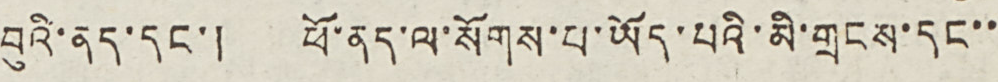བུའི་ནད་དང་། ཕོ་ནད་ལ་སོགས་པ་ཡོད་པའི་མི་གྲངས་དང་་
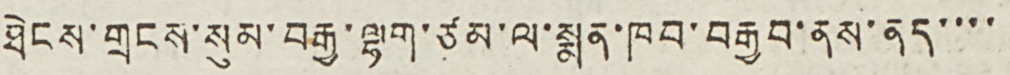ཐེངས་གྲངས་སུམ་བརྒྱ་ལྷག་ཙམ་ལ་སྨན་ཁབ་བརྒྱབ་ནས་ནད་་་་
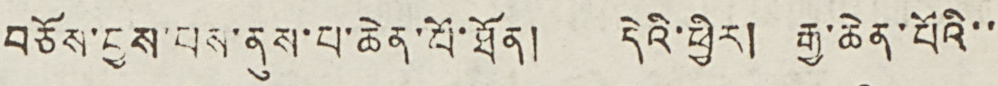བཅོས་བྱས་པས་ནུས་པ་ཆེན་པོ་ཐོན། དེའི་ཕྱིར། རྒྱ་ཆེན་པོའི་་
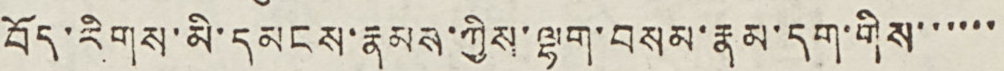བོད་རིགས་མི་དམངས་རྣམས་ཀྱིས་ལྷག་བསམ་རྣམ་དག་གིས་་་་་་
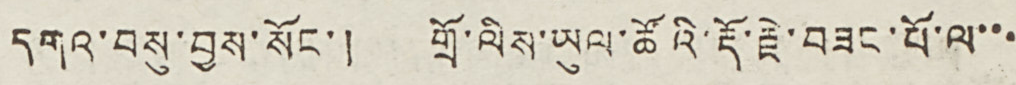དགའ་བསུ་བྱས་སོང་། གྲོ་ལིས་ཡུལ་ཚོའི་རྡོ་རྗེ་བཟང་པོ་ལ་་་
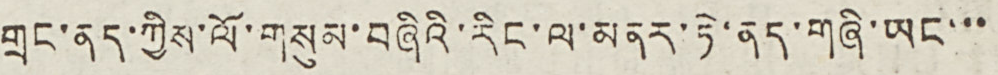གྲང་ནད་ཀྱིས་ལོ་གསུམ་བཞིའི་རིང་ལ་མནར་ཏེ་ནད་གཞི་ཡང་་་
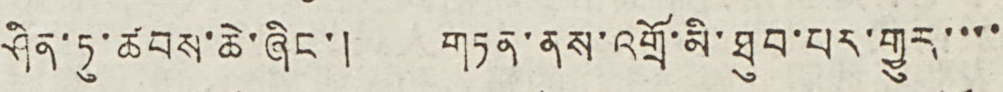ཤིན་ཏུ་ཚབས་ཆེ་ཞིང་། གཏན་ནས་འགྲོ་མི་ཐུབ་པར་གྱུར་་་་
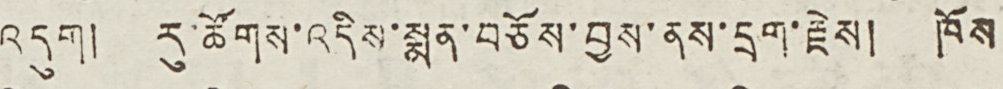འདུག། རུ་ཚོགས་འདིས་སྨན་བཅོས་བྱས་ནས་དྲུག་རྗེས། ཁོས
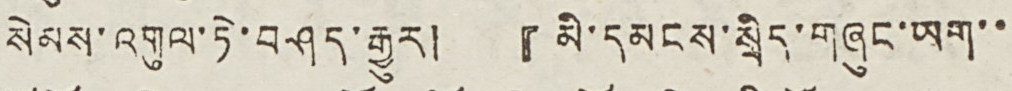སེམས་འགུལ་ཏེ་བཤད་རྒྱུར། 『མི་དམངས་སྲིད་གཞུང་ཡག་་
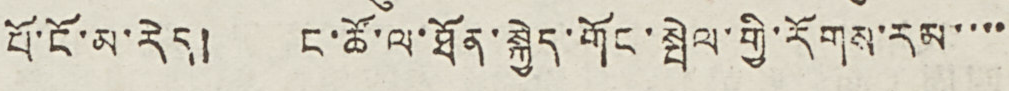པོ་ངོ་མ་རེད། ང་ཚོ་ལ་ཐོན་སྐྱེད་གོང་སྤེལ་གྱི་རོགས་རམ་་་་
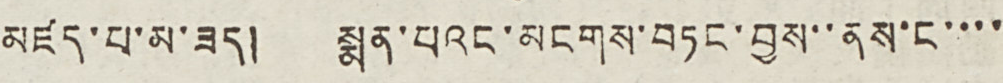མཛད་པ་མ་ཟད། སྨན་པའང་མངགས་བཏང་བྱས་་ནས་ང་་་་
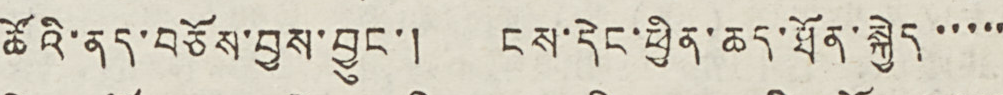ཚོའི་ནད་བཅོས་བྱས་བྱུང་། ངས་དེང་ཕྱིན་ཆད་ཐོན་སྐྱེད་་་་་
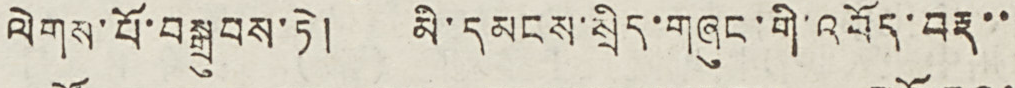ལེགས་པོ་བསྒྲུབས་ཏེ། མི་དམངས་སྲིད་གཞུང་གི་འབོད་བརྡ་་
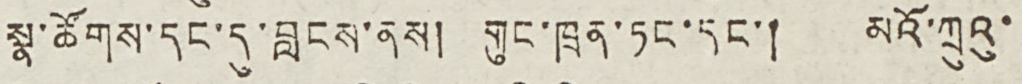སྣ་ཚོགས་དང་དུ་བླངས་ནས། གུང་ཁྲན་ཏང་དང་། མའོ་ཀྲུའུ་
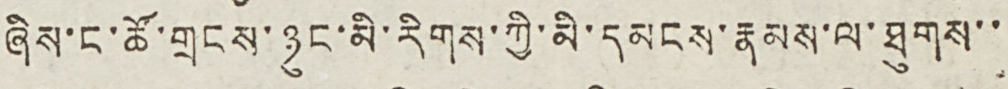ཞིས་ང་ཚོ་གྲངས་ཉུང་མི་རིགས་ཀྱི་མི་དམངས་རྣམས་ལ་ཐུགས་་
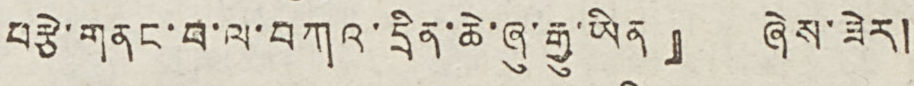བརྩེ་གནང་བ་ལ་བཀའ་དྲིན་ཆེ་ཞུ་རྒྱུ་ཡིན』ཞེས་ཟེར།
